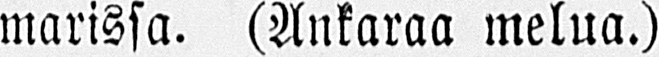marissa. (Ankaraa melua.)
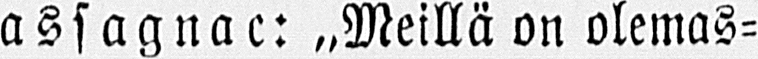Cassagnac: „Meillä on olemas-
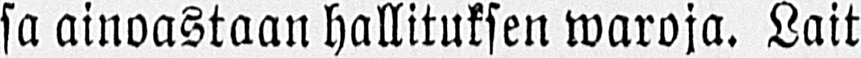sa ainoastaan hallituksen waroja. Lait
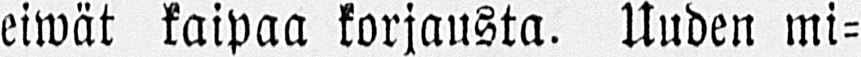eiwät kaipaa korjausta. Uuden mi-
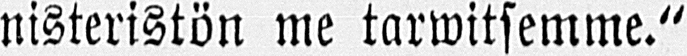nisteristön me tarwitsemme."
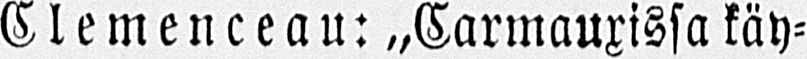Clemenceau: „Carmauxissa käy-
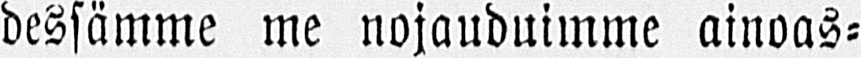dessämme me nojauduimme ainoas-
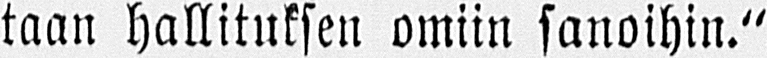taan hallituksen omiin sanoihin."
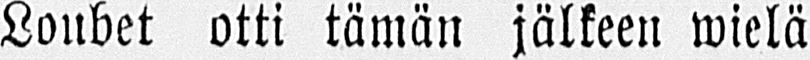Loubet otti tämän jälkeen wielä
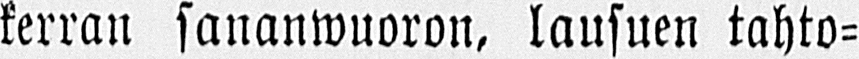kerran sananwuoron, lausuen tahto-
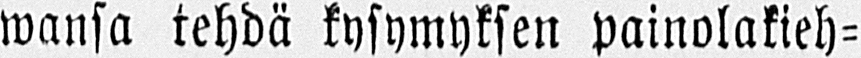wansa tehdä kysymyksen painolakieh-
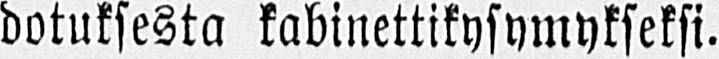dotuksesta kabinettikysymykseksi.
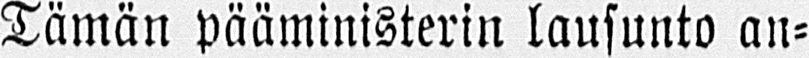Tämän pääministerin lausunto an-
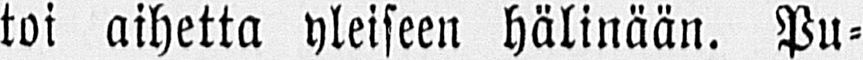toi aihetta yleiseen hälinään. Pu-
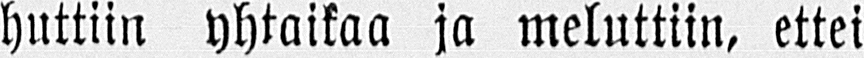huttiin yhtaikaa ja meluttiin, ettei
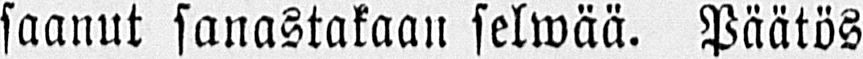saanut sanastakaan selwää. Päätös
